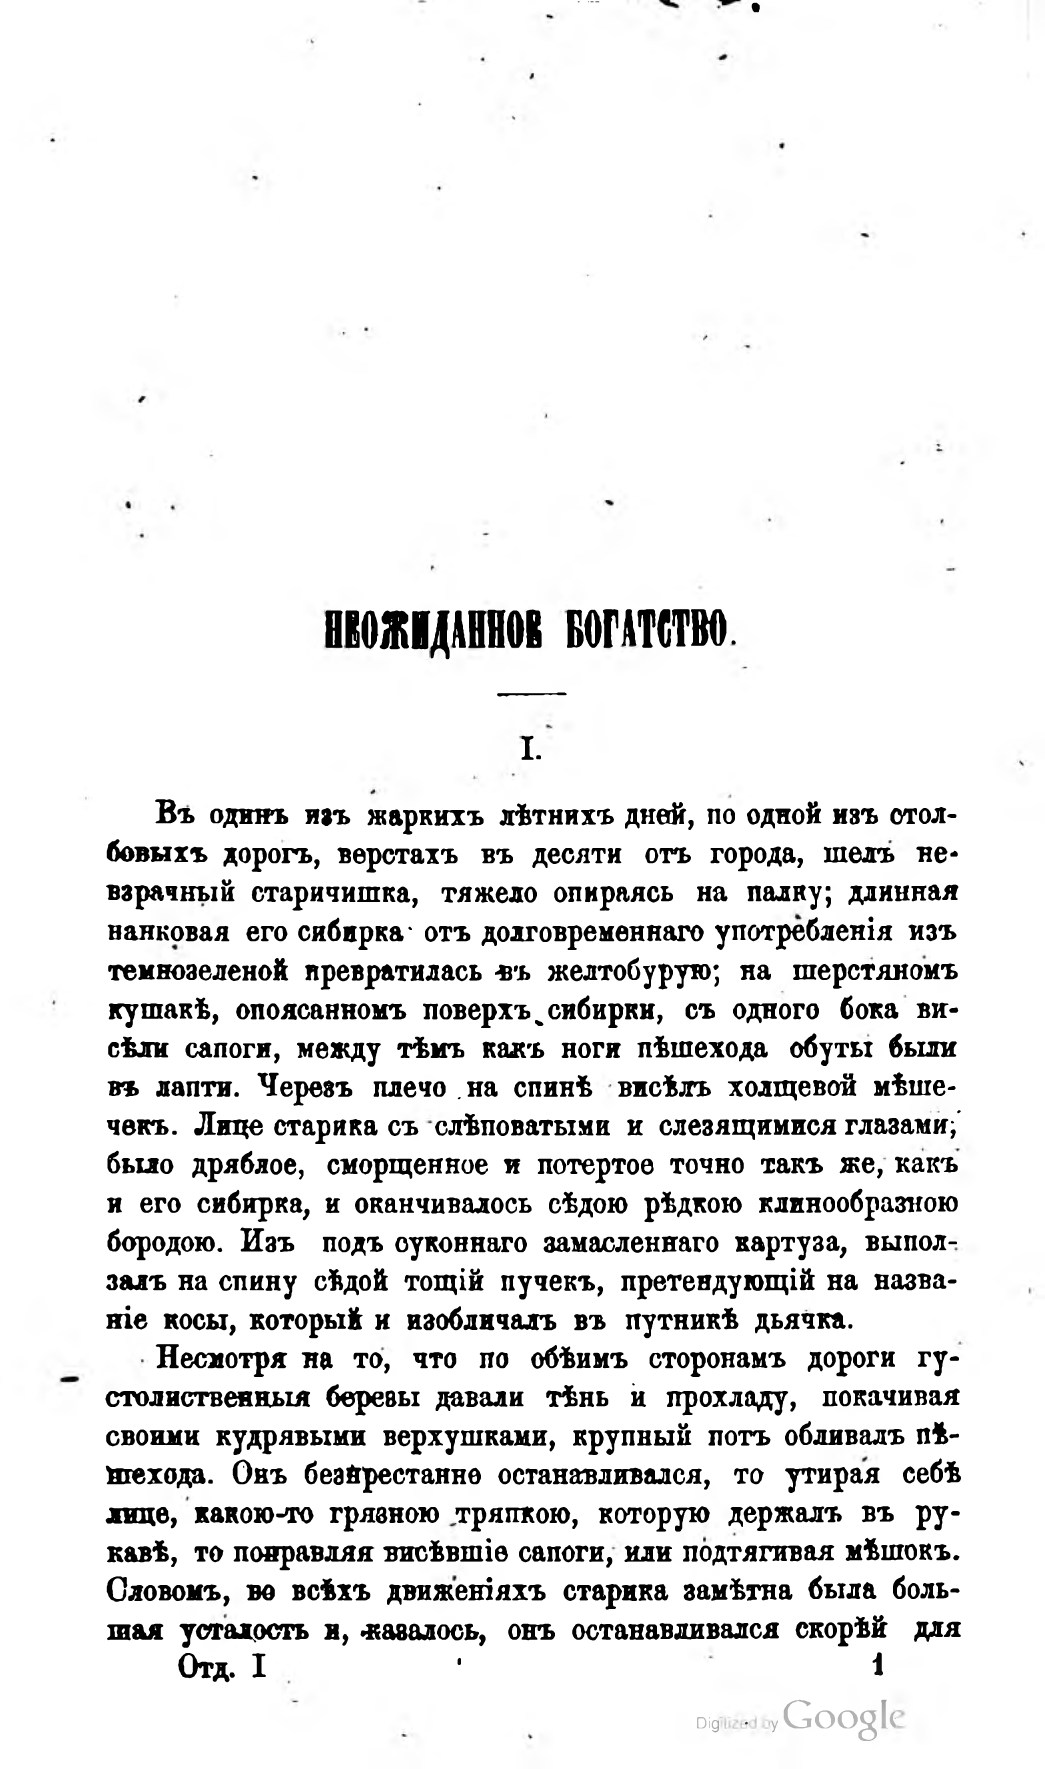НЕОЖИДАННОЕ БОГАТСТВО.
I.
Въ одинъ изъ жаркихъ лѣтнихъ дней, по одной изъ столбовыхъ дорогъ, верстахъ въ десяти отъ города, шелъ невзрачный старичишка, тяжело опираясь на палку; длинная нанковая его сибирка отъ долговременнаго употребленія изъ темнозеленой превратилась въ желтобуруго; на шерстяномъ кушакѣ, опоясанномъ поверхъ сибирки, съ одного бока висѣли сапоги, между тѣмъ какъ ноги пѣшехода обуты были въ лапти. Черезъ плечо на спинѣ висѣлъ холщевой мѣшечекъ. Лице старика съ слѣповатыми и слезящимися глазами, было дряблое, сморщенное и потертое точно такъ же, какъ и его сибирка, и оканчивалось сѣдою рѣдкою клинообразною бородою. Изъ подъ суконнаго замасленнаго картуза, выползалъ на спину сѣдой тощій пучекъ, претендующій на названіе косы, который и изобличалъ въ путникѣ дьячка.
Несмотря на то, что по обѣимъ сторонамъ дороги густолиственныя березы давали тѣнь и прохладу, покачивая своими кудрявыми верхушками, крупный потъ обливалъ пѣшехода. Онъ безпрестанно останавливался, то утирая себѣ лице, какою-то грязною тряпкою, которую держалъ въ рукавѣ, то поправляя висѣвшіе сапоги, или подтягивая мѣшокъ. Словомъ, во всѣхъ движеніяхъ старика замѣтна была большая усталость и, казалось, онъ останавливался скорѣй для
Отд. I
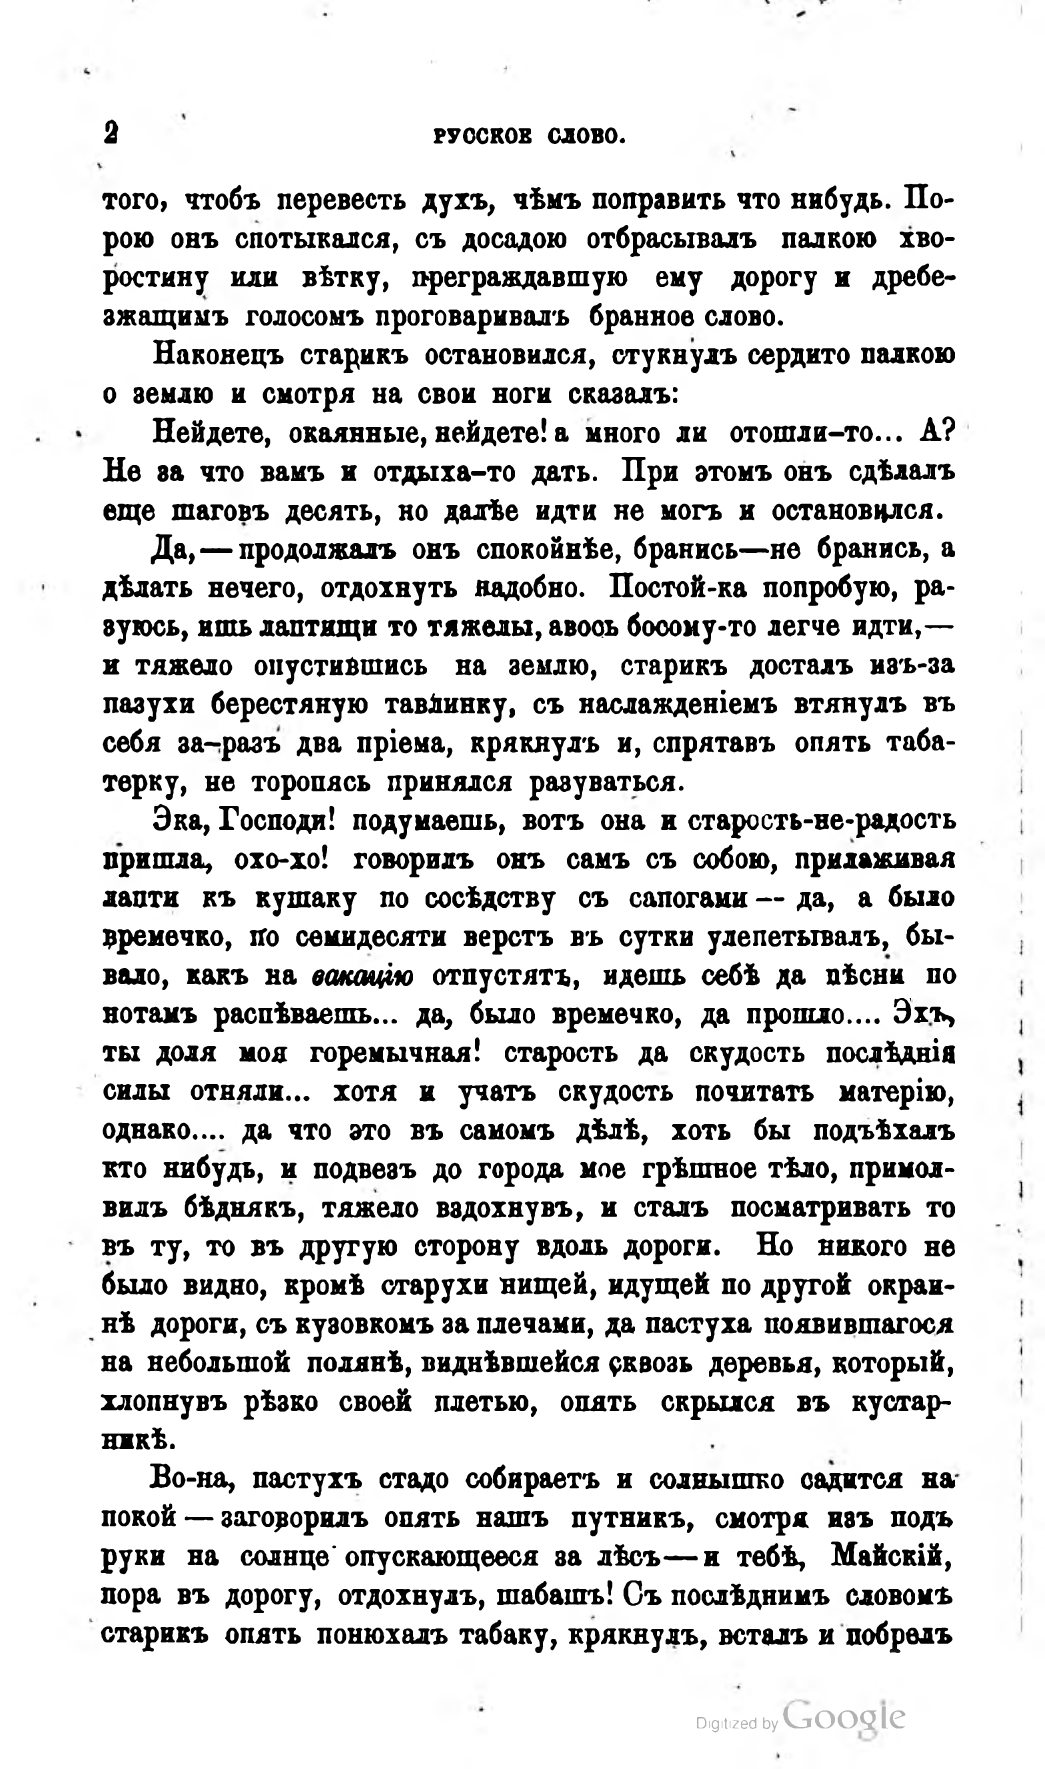2                      РУССКОЕ СЛОВО.
того, чтобъ перевесть духъ, чѣмъ поправить что нибудь. Порою онъ спотыкался, съ досадою отбрасывалъ палкою хворостину или вѣтку, преграждавшую ему дорогу и дребезжащимъ голосомъ проговаривалъ бранное слово.
Наконецъ старикъ остановился, стукнулъ сердито палкою о землю и смотря на свои ноги сказалъ:
Нейдете, окаянные, нейдете! а много ли отошли-то... А? Не за что вамъ и отдыха-то дать. При этомъ онъ сдѣлалъ еще шаговъ десять, но далѣе идти не могъ и остановился.
Да, — продолжалъ онъ спокойнѣе, бранись — не бранись, а дѣлать нечего, отдохнуть надобно. Постой-ка попробую, разуюсь, ишь лаптищи то тяжелы, авось босому-то легче идти, — и тяжело опустившись на землю, старикъ досталъ изъ-за пазухи берестяную тавлинку, съ наслажденіемъ втянулъ въ себя за-разъ два пріема, крякнулъ и, спрятавъ опять табатерку, не торопясь принялся разуваться.
Эка, Господи! подумаешь, вотъ она и старость-не-радость пришла, охо-хо! говорилъ онъ самъ съ собою, прилаживая лапти къ кушаку по сосѣдству съ сапогами — да, а было времечко, по семидесяти верстъ въ сутки улепетывалъ, бывало, какъ на вакацію отпустятъ, идешь себѣ да пѣсни по нотамъ распѣваешь... да, было времечко, да прошло... Эхъ, ты доля моя горемычная! старость да скудость послѣднія силы отняли... хотя и учатъ скудость почитать матерію, однако... да что это въ самомъ дѣлѣ, хоть бы подъѣхалъ кто нибудь, и подвезъ до города мое грѣшное тѣло, примолвилъ бѣднякъ, тяжело вздохнувъ, и сталъ посматривать то въ ту, то въ другую сторону вдоль дороги. Но никого не было видно, кромѣ старухи нищей, идущей по другой окраинѣ дороги, съ кузовкомъ за плечами, да пастуха появившагося на небольшой полянѣ, виднѣвшейся сквозь деревья, который, хлопнувъ рѣзко своей плетью, опять скрылся въ кустарникѣ.
Во-на, пастухъ стадо собираетъ и солнышко садится на покой — заговорилъ опять нашъ путникъ, смотря изъ подъ руки на солнце опускающееся за лѣсъ — и тебѣ, Майскій, пора въ дорогу, отдохнулъ, шабашъ! Съ послѣднимъ словомъ старикъ опять понюхалъ табаку, крякнулъ, всталъ и побрелъ
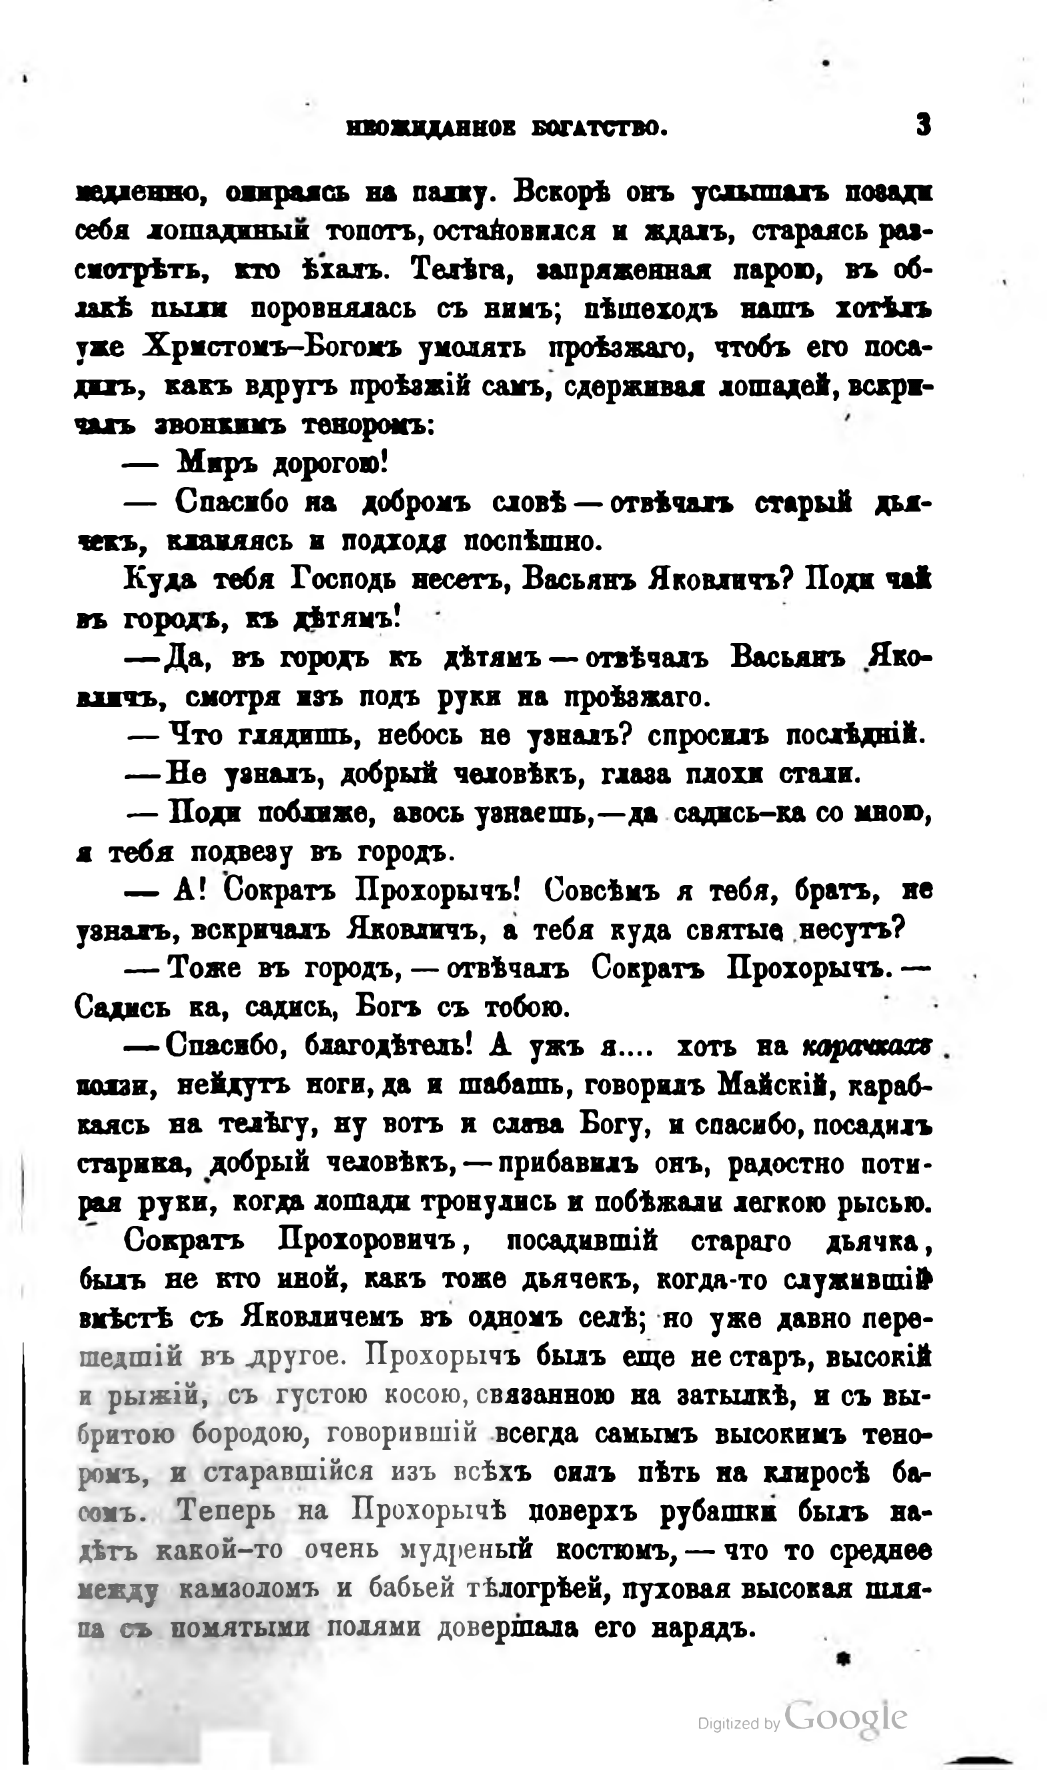НЕОЖИДАННОЕ БОГАТСТВО.                       3
медленно, опираясь на палку. Вскорѣ онъ услышалъ позади себя лошадиный топотъ, остановился и ждалъ, стараясь разсмотрѣть, кто ѣхалъ. Телѣга, запряженная парою, въ облакѣ пыли поровнялась съ нимъ; пѣшеходъ нашъ хотѣлъ уже Христомъ-Богомъ умолять проѣзжаго, чтобъ его посадилъ, какъ вдругъ проѣзжій самъ, сдерживая лошадей, вскричалъ звонкимъ теноромъ:
— Миръ дорогою!
— Спасибо на добромъ словѣ — отвѣчалъ старый дьячекъ, кланяясь и подходя поспѣшно.
Куда тебя Господь несетъ, Васьянъ Яковличъ? Поди чай въ городъ, къ дѣтямъ!
— Да, въ городъ къ дѣтямъ — отвѣчалъ Васьянъ Яковличъ, смотря изъ подъ руки на проѣзжаго.
— Что глядишь, небось не узналъ? спросилъ послѣдній.
— Не узналъ, добрый человѣкъ, глаза плохи стали.
— Поди поближе, авось узнаешь, — да садись-ка со мною, я тебя подвезу въ городъ.
— А! Сократъ Прохорычъ! Совсѣмъ я тебя, братъ, не узналъ, вскричалъ Яковличъ, а тебя куда святые несутъ?
— Тоже въ городъ, — отвѣчалъ Сократъ Прохорычъ. — Садись ка, садись, Богъ съ тобою.
— Спасибо, благодѣтель! А ужъ я... хотъ на карачкахъ ползи, нейдутъ ноги, да и шабашь, говорилъ Майскій, карабкаясь на телѣгу, ну вотъ и слава Богу, и спасибо, посадилъ старика, добрый человѣкъ, — прибавилъ онъ, радостно потирая руки, когда лошади тронулись и побѣжали легкою рысью.
Сократъ Прохоровичъ, посадившій стараго дьячка, былъ не кто иной, какъ тоже дьячекъ, когда-то служившій вмѣстѣ съ Яковличемъ въ одномъ селѣ; но уже давно перешедшій въ другое. Прохорычъ былъ еще не старъ, высокій и рыжій, съ густою косою, связанною на затылкѣ, и съ выбритою бородою, говорившій всегда самымъ высокимъ теноромъ, и старавшійся изъ всѣхъ силъ пѣть на клиросѣ басомъ. Теперь на Прохорычѣ поверхъ рубашки былъ надѣтъ какой-то очень мудреный костюмъ, — что то среднее между камзоломъ и бабьей тѣлогрѣей, пуховая высокая шляпа съ помятыми полями довершала его нарядъ.
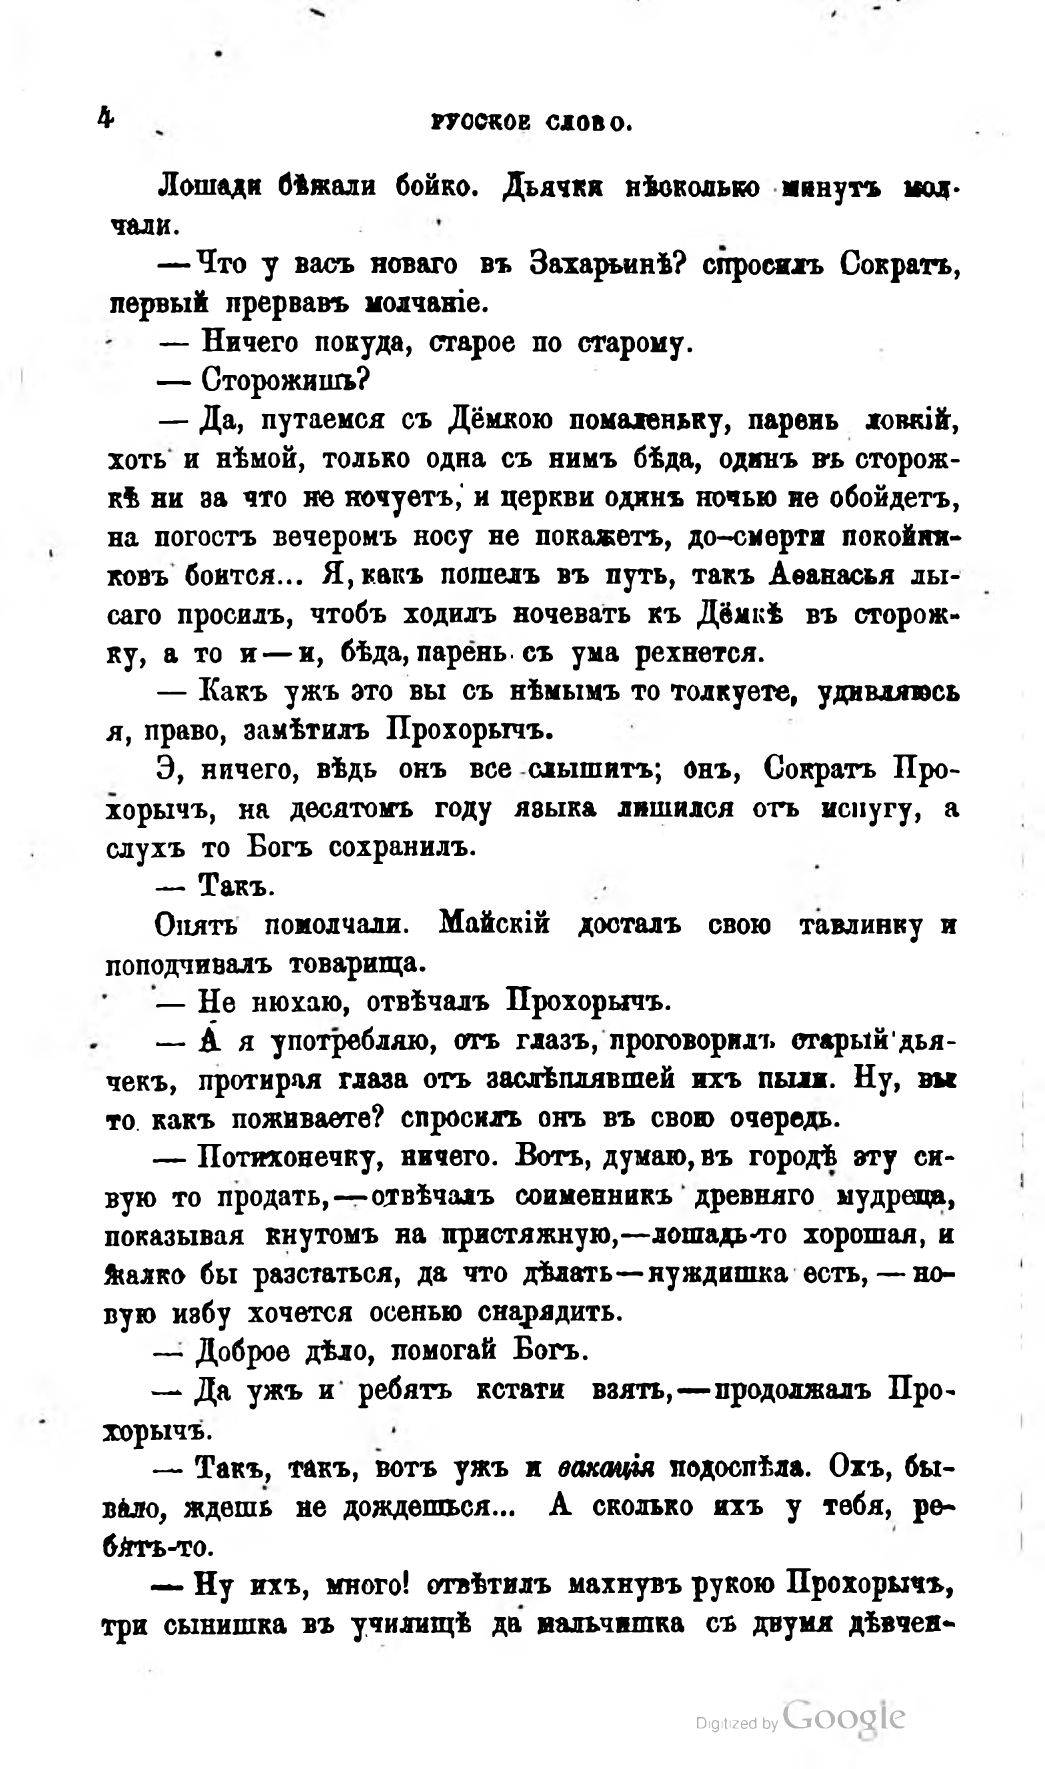4                       РУССКОЕ СЛОВО.
Лошади бѣжали бойко. Дьячки нѣсколько минуть молчали.
— Что у васъ новаго въ Захарьинѣ? спросилъ Сократъ, первый прервавъ молчаніе.
— Ничего покуда, старое по старому.
— Сторожишь?
— Да, путаемся съ Дёмкою помаленьку, парень ловкій, хоть и нѣмой, только одна съ нимъ бѣда, одинъ въ сторожкѣ ни за что не ночуетъ, и церкви одинъ ночью не обойдетъ, на погостъ вечеромъ носу не покажетъ, до-смерти покойниковъ боится... Я, какъ пошелъ въ путь, такъ Аѳанасья лысаго просилъ, чтобъ ходилъ ночевать къ Дёмкѣ въ сторожку, а то и — и, бѣда, парень, съ ума рехнется.
— Какъ ужъ это вы съ нѣмымъ то толкуете, удивляюсь я, право, замѣтилъ Прохорычъ.
Э, ничего, вѣдь онъ все слышитъ; онъ, Сократъ Прохорычъ, на десятомъ году яэыка лишился отъ испугу, а слухъ то Богъ сохранилъ.
— Такъ.
Опять помолчали. Майскій досталъ свою тавлинку и поподчивалъ товарища.
— Не нюхаю, отвѣчалъ Прохорычъ.
— А я употребляю, отъ глазъ, проговорилъ старый дьячекъ, протирая глаза отъ заслѣплявшей ихъ пыли. Ну, вы то какъ поживаете? спросилъ онъ въ свою очередь.
— Потихонечку, ничего. Вотъ, думаю, въ городѣ эту сивую то продать, — отвѣчалъ соименникъ древняго мудреца, показывая кнутомъ на пристяжную, — лошадь-то хорошая, и жалко бы разстаться, да что дѣлать — нуждишка есть, — новую избу хочется осенью снарядить.
— Доброе дѣло, помогай Богъ.
— Да ужъ и ребятъ кстати взять, — продолжалъ Прохорычъ.
— Такъ, такъ, вотъ ужъ и вакація подоспѣла. Охъ, бывало, ждешь не дождешься... А сколько ихъ у тебя, ребятъ-то.
— Ну ихъ, много! отвѣтилъ махнувъ рукою Прохорычъ, три сынишка въ училищѣ да мальчишка съ двумя дѣвчен-